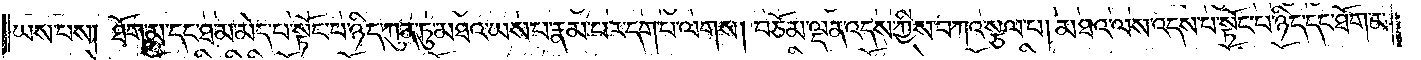ཡས་པས། ཐོག་མ་དང་ཐ་མ་མེད་པ་སྟོང་པ་ཉིད་ཀུན་ཏུ་མཐའ་ཡས་པ་རྣམ་པར་དག་པ་ལགས། བཅོམ་ལྡན་འདས་ཀྱིས་བཀའ་སྩལ་པ། མཐའ་ལས་འདས་པ་སྟོང་པ་ཉིད་དང་ཐོག་མ་
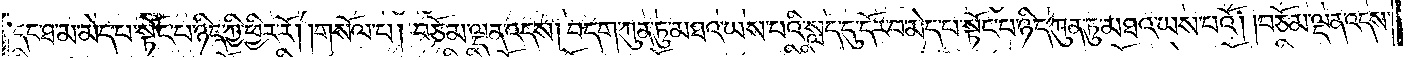དང་ཐ་མ་མེད་པ་སྟོང་པ་ཉིད་ཀྱི་ཕྱིར་རོ། །གསོལ་པ། བཅོམ་ལྡན་འདས། བདག་ཀུན་ཏུ་མཐའ་ཡས་པའི་སླད་དུ་དོར་བ་མེད་པ་སྟོང་པ་ཉིད་ཀུན་ཏུ་མཐའ་ཡས་པའོ། །བཅོམ་ལྡན་འདས་
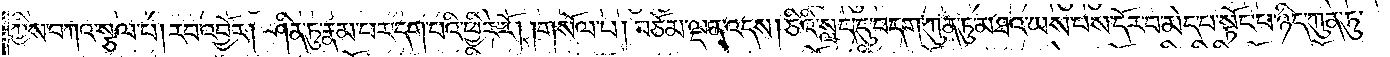ཀྱིས་བཀའ་སྩལ་པ། རབ་འབྱོར། ཤིན་ཏུ་རྣམ་པར་དག་པའི་ཕྱིར་རོ། །གསོལ་པ། བཅོམ་ལྡན་འདས། ཅིའི་སླད་དུ་བདག་ཀུན་ཏུ་མཐའ་ཡས་པས་དོར་བ་མེད་པ་སྟོང་པ་ཉིད་ཀུན་ཏུ་
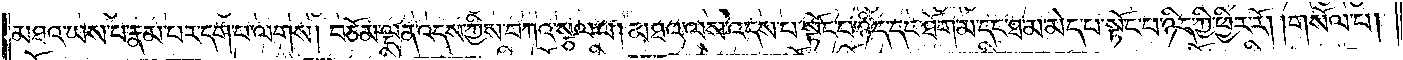མཐའ་ཡས་པ་རྣམ་པར་དག་པ་ལགས། བཅོམ་ལྡན་འདས་ཀྱིས་བཀའ་སྩལ་པ། མཐའ་ལས་འདས་པ་སྟོང་པ་ཉིད་དང་ཐོག་མ་དང་ཐ་མ་མེད་པ་སྟོང་པ་ཉིད་ཀྱི་ཕྱིར་རོ། །གསོལ་པ།
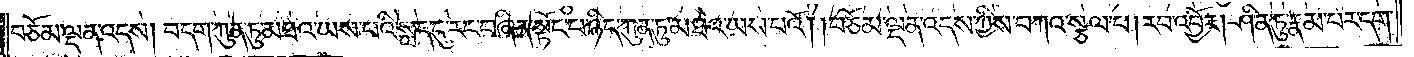བཅོམ་ལྡན་འདས། བདག་ཀུན་ཏུ་མཐའ་ཡས་པའི་སླད་དུ་རང་བཞིན་སྟོང་པ་ཉིད་ཀུན་ཏུ་མཐའ་ཡས་པའོ། །བཅོམ་ལྡན་འདས་ཀྱིས་བཀའ་སྩལ་པ། རབ་འབྱོར། ཤིན་ཏུ་རྣམ་པར་དག་
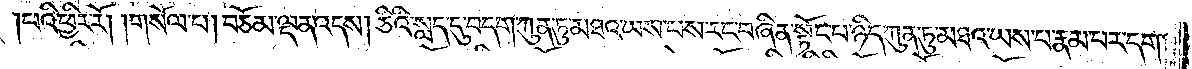པའི་ཕྱིར་རོ། །གསོལ་པ། བཅོམ་ལྡན་འདས། ཅིའི་སླད་དུ་བདག་ཀུན་ཏུ་མཐའ་ཡས་པས་རང་བཞིན་སྟོང་པ་ཉིད་ཀུན་ཏུ་མཐའ་ཡས་པ་རྣམ་པར་དག་
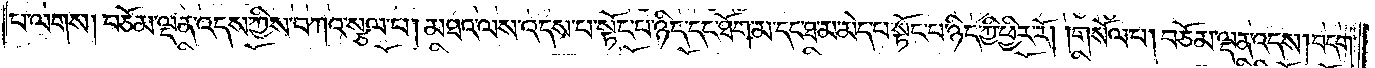པ་ལགས། བཅོམ་ལྡན་འདས་ཀྱིས་བཀའ་སྩལ་པ། མཐའ་ལས་འདས་པ་སྟོང་པ་ཉིད་དང་ཐོག་མ་དང་ཐ་མ་མེད་པ་སྟོང་པ་ཉིད་ཀྱི་ཕྱིར་རོ། །གསོལ་པ། བཅོམ་ལྡན་འདས། བདག་
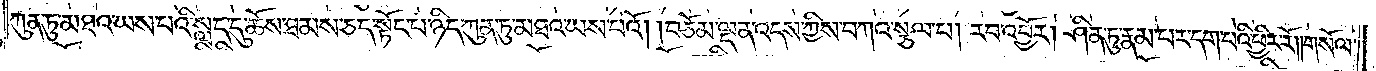ཀུན་ཏུ་མཐའ་ཡས་པའི་སླད་དུ་ཆོས་ཐམས་ཅད་སྟོང་པ་ཉིད་ཀུན་ཏུ་མཐའ་ཡས་པའོ། །བཅོམ་ལྡན་འདས་ཀྱིས་བཀའ་སྩལ་པ། རབ་འབྱོར། ཤིན་ཏུ་རྣམ་པར་དག་པའི་ཕྱིར་རོ། །གསོལ་
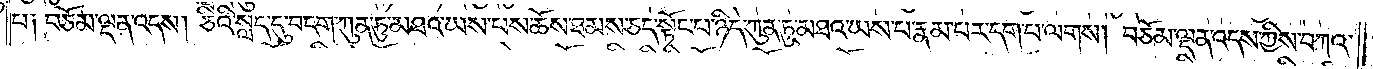པ༑ བཅོམ་ལྡན་འདས། ཅིའི་སླད་དུ་བདག་ཀུན་ཏུ་མཐའ་ཡས་པས་ཆོས་ཐམས་ཅད་སྟོང་པ་ཉིད་ཀུན་ཏུ་མཐའ་ཡས་པ་རྣམ་པར་དག་པ་ལགས། བཅོམ་ལྡན་འདས་ཀྱིས་བཀའ་
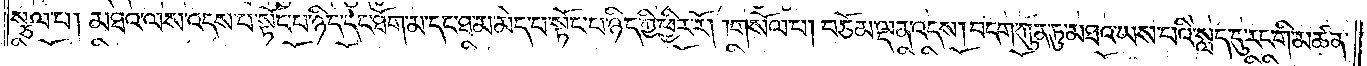སྩལ་པ། མཐའ་ལས་འདས་པ་སྟོང་པ་ཉིད་དང་ཐོག་མ་དང་ཐ་མ་མེད་པ་སྟོང་པ་ཉིད་ཀྱི་ཕྱིར་རོ། །གསོལ་པ། བཅོམ་ལྡན་འདས། བདག་ཀུན་ཏུ་མཐའ་ཡས་པའི་སླད་དུ་རང་གི་མཚན་
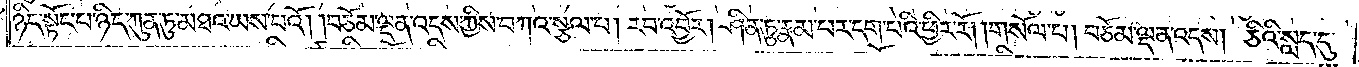ཉིད་སྟོང་པ་ཉིད་ཀུན་ཏུ་མཐའ་ཡས་པའོ། །བཅོམ་ལྡན་འདས་ཀྱིས་བཀའ་སྩལ་པ། རབ་འབྱོར། ཤིན་ཏུ་རྣམ་པར་དག་པའི་ཕྱིར་རོ། །གསོལ་པ། བཅོམ་ལྡན་འདས། ཅིའི་སླད་དུ་
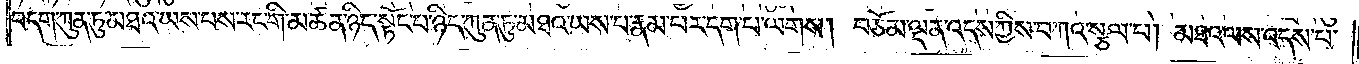བདག་ཀུན་ཏུ་མཐའ་ཡས་པས་རང་གི་མཚན་ཉིད་སྟོང་པ་ཉིད་ཀུན་ཏུ་མཐའ་ཡས་པ་རྣམ་པར་དག་པ་ལགས། བཅོམ་ལྡན་འདས་ཀྱིས་བཀའ་སྩལ་པ། མཐའ་ལས་འདས་པ་
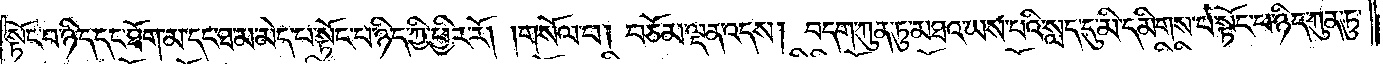སྟོང་པ་ཉིད་དང་ཐོག་མ་དང་ཐ་མ་མེད་པ་སྟོང་པ་ཉིད་ཀྱི་ཕྱིར་རོ། །གསོལ་པ། བཅོམ་ལྡན་འདས། བདག་ཀུན་ཏུ་མཐའ་ཡས་པའི་སླད་དུ་མི་དམིགས་པ་སྟོང་པ་ཉིད་ཀུན་ཏུ་
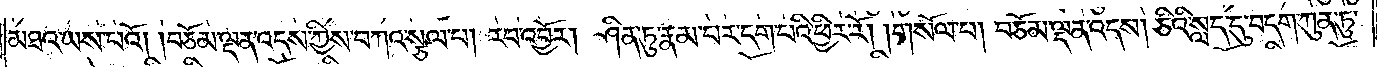མཐའ་ཡས་པའོ། །བཅོམ་ལྡན་འདས་ཀྱིས་བཀའ་སྩལ་པ། རབ་འབྱོར། ཤིན་ཏུ་རྣམ་པར་དག་པའི་ཕྱིར་རོ། །གསོལ་པ། བཅོམ་ལྡན་འདས། ཅིའི་སླད་དུ་བདག་ཀུན་ཏུ་
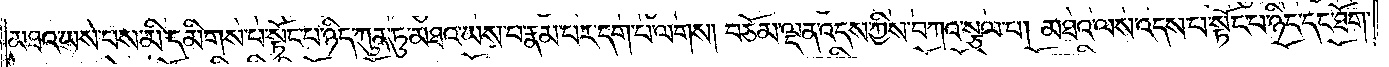མཐའ་ཡས་པས་མི་དམིགས་པ་སྟོང་པ་ཉིད་ཀུན་ཏུ་མཐའ་ཡས་པ་རྣམ་པར་དག་པ་ལགས། བཅོམ་ལྡན་འདས་ཀྱིས་བཀའ་སྩལ་པ། མཐའ་ལས་འདས་པ་སྟོང་པ་ཉིད་དང་ཐོག་
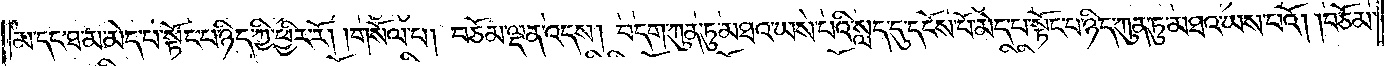མ་དང་ཐ་མ་མེད་པ་སྟོང་པ་ཉིད་ཀྱི་ཕྱིར་རོ། །གསོལ་པ། བཅོམ་ལྡན་འདས། བདག་ཀུན་ཏུ་མཐའ་ཡས་པའི་སླད་དུ་དངོས་པོ་མེད་པ་སྟོང་པ་ཉིད་ཀུན་ཏུ་མཐའ་ཡས་པའོ། །བཅོམ་
